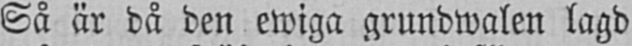Så är då den ewiga grundwalen lagd
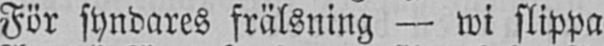För syndares frälsning — wi slippa
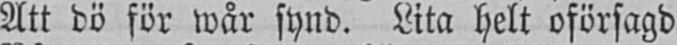Att dö för wår synd. Lita helt oförsagd
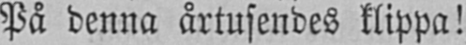På denna årtusendes klippa!
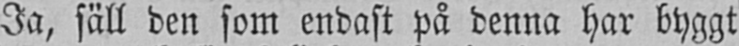Ja, säll den som endast på denna har byggt
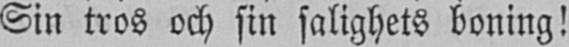Sin tros och sin salighets boning!
